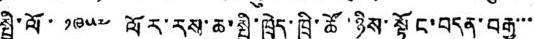སྤྱི་ལོ་ ༡༩༥༧ ལོར་རས་ཆ་སྤྱི་ཁྲེད་ཁྲི་ཚོ་ཉིས་སྟོང་བདུན་བརྒྱ་་་
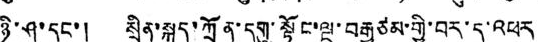ཉི་ཤུ་དང་། སྲིན་སྐུད་ཀྲོན་དགུ་སྟོང་ལྔ་བརྒྱ ཙམ་གྱི་བར་དུ་འཕར
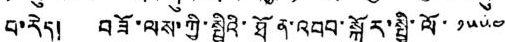བ་རེད། བཟོ་ལས་ཀྱི་སྤྱིའི་ཐོན་འབབ་སྐོར་སྤྱི་ལོ་ ༡༥༥༤
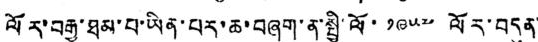ལོར་བརྒྱ་ཐམ་བ་ཡིན་པར་ཆ་བཞག་ན་སྤྱི་ལོ་ ༡༩༥༧ ལོར་བདུན་
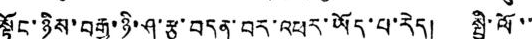སྟོང་ཉིས་བརྒྱ་ཉི་ཤུ་རྩ་བདུན་བར་འཕར་ཡོད་པ་རེད། སྤྱི་ལོ་་
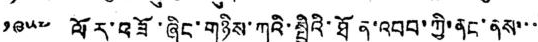༡༩༥༧ ལོར་བཟོ་ཞིང་གཉིས་ཀའི་སྤྱིའི་ཐོན་འབབ་ཀྱི་ནང་ནས་་་
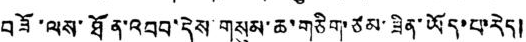བཟོ་ལས་ཐོན་འབབ་དེས་གསུམ་ཆ་གཅིག་ཙམ་ཟིན་ཡོད་པ་རེད།
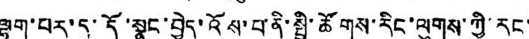ལྷག་པར་དུ་དོ་སྣང་བྱེད་འོས་པ་ནི་སྤྱི་ཚོགས་རིང་ལུགས་ཀྱི་རང་
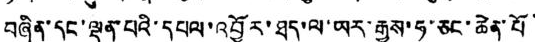བཞིན་དང་ལྡན་པའི་དཔལ་འབྱོར་ཐད་ལ་ཡར་རྒྱས་ཧ་ཅང་ཆེན་པོ་
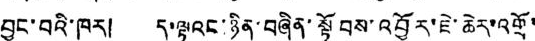བྱུང་བའི་ཁར། ད་ལྟའང་ཉིན་བཞིན་སྟོབས་འབྱོར་ཇེ་ཆེར་འགྲོ་
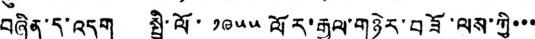བཞིན་དུ་འདུག སྤྱི་ལོ་ ༡༩༥༥ ལོར་རྒྱལ་གཉེར་བཟོ་ལས་ཀྱི་་་
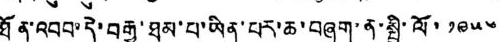ཐོན་འབབ་དེ་བརྒྱ་ཐམ་པ་ཡིན་པར་ཆ་བཞག་ན་སྤྱི་ལོ་ ༡༩༥༥
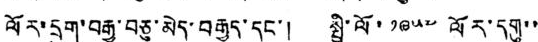ལོར་དྲུག་བརྒྱ་བཅུ་མེད་བརྒྱད་དང་། སྤྱི་ལོ་ ༡༩༥༧ ལོར་དགུ་་
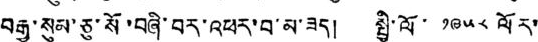བརྒྱ་སུམ་ཅུ་སོ་བཞི་བར་འཕར་བ་མ་ཟད། སྤྱི་ལོ་ ༡༩༥༨ ལོར་
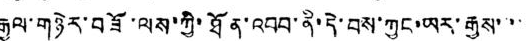རྒྱལ་གཉེར་བཟོ་ལས་ཀྱི་ཐོན་འབབ་ནི་དེ་བས་ཀྱང་ཡར་རྒྱས་་་་
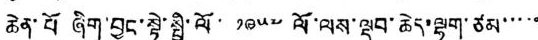ཆེན་པོ ཞིག་བྱུང་སྟེ་སྤྱི་ལོ་ ༡༩༥༧ ལོ་ལས་ལྡབ་ཆེད་ལྷག་ཙམ་་་་་
